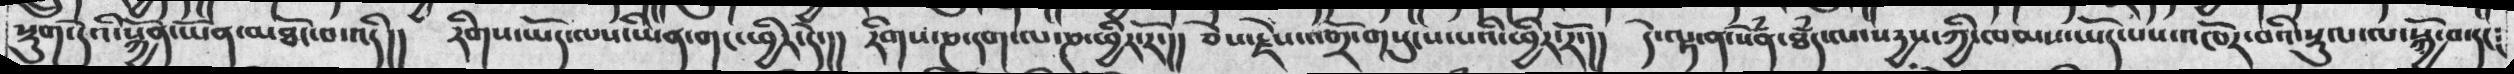སྡུག་དེའི་སྐྱོན་ཡོན་མཐོང་བ་འདི།།  རིགས་ཡོད་པས་ཡིན་གང་ཕྱིར་དེ་།།  རིགས་ཎ་དག་ལ་ཎ་ཕྱིར་རོ་།།  ཅེས་རྗེས་འགྲོ་གསུངས་པའི་ཕྱིར་རོ་།།  དེ་ལྟ་ན་སེཾན་ཐཾད་ལ་སདྱས་ཀྱི་ཁམས་ཡོད་པས་འཁོར་བའི་སྡུལ་ལ་སྐྱོ་བ་དང༴
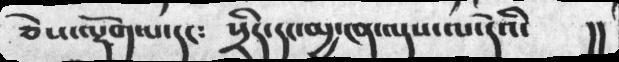ཅེས་ལྡོག་པ་དང༴ སྲིད་དང་མྱ་ངན་འདས་ལ་དེའི་ །།
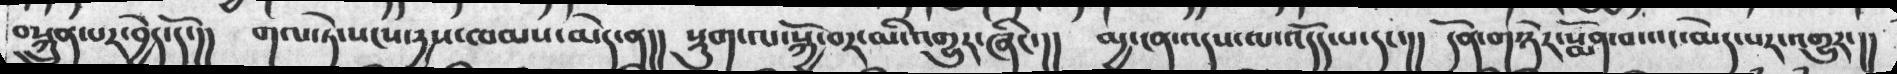བསྐྲུན་པར་བྱེད་དེ་།། གལ་ཏེ་སངས་དྱས་ཁམས་མེད་ན།། སྡུག་ལ་སྐྱོ་བར་མི་འགྱུར་ཞིང་།།  མྱ་ངན་འདས་ལ་འདོད་པ་དང་།། དོན་གཉེར་སྨོན་བ་འང་མེད་པར་འགྱུར་།།
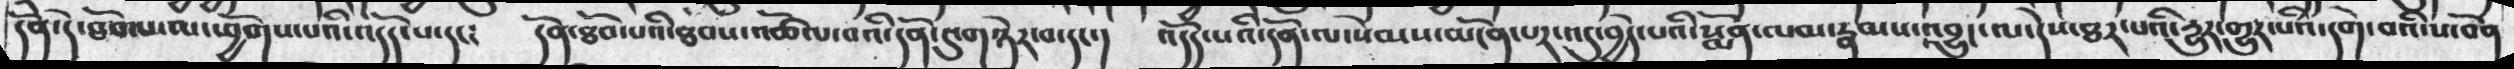དོན་དེ་ཐོབ་པ་ལ་ཕྱོགས་པའི་འདོད་པ་དང་༴ དོན་ཐོབ་པའི་ཐབས་འཚོལ་བའི་དོན་དུ་གཉེར་བ་དང་། འདོད་པའི་དོན་ལ་སེམས་མངོན་པར་འདུ་བྱེད་པའི་སྨོན་ལམ་རྣམས་འབྱུང་ལ་དེས་ཐར་པའི་རྱུར་གྱུར་པའི་དགེ་བའི་ས་བོན
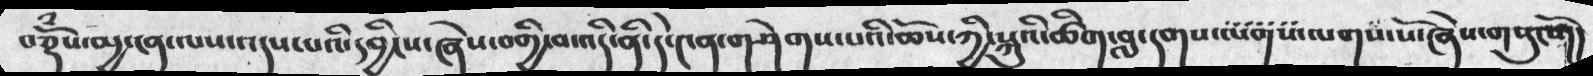བཅྡོཾས་མྱ་ངན་ལས་འདས་པའི་དབྱིངས་ཞེས་བགྱི་བ་འདི་ནི་དེ་༤ན་གཤེགས་པའི་ཆོས་ཀྱི་སྐུའི་ཚིག་བླ་དགས་ལགས་ལགས་སོ་ཞེས་གསུངསོ།།
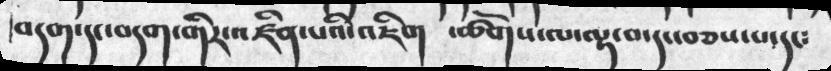བདག་དང་བདག་གིར་འཛིན་པའི་འཇིག ་ཚོགས་ལ་ལྟ་བ་དང་བཅས་པ་དང༴
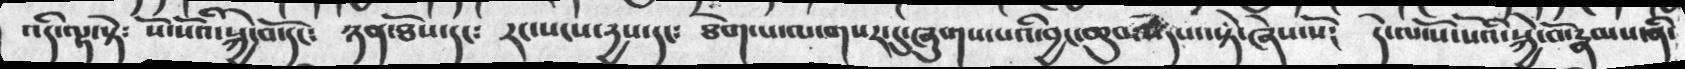འདི་ལྟ་སྟེ༴ སོ་སོའི་སྐྱེ་བོ་དང༴ ཉན་ཐོས་དང༴ རང་སངས་རྱས་དང༴ ཐེག་པ་ལ་གསར་དུ་ཞུགས་པའི་བྱང་ཆུབ་དེས་སྟེ་ཞེས་སོ༴ དེ་ལ་སོ་སོའི་སྐྱེ་བོ་རྣམས་ནི་
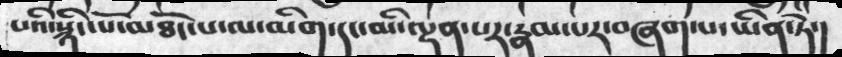པའི་སྙིང་པོ་མཐོང་པ་ལ་མིག་དང་མི་ལྡན་པར་རྣམ་པར་བཞག་པ་ཡིན་ཏེ་།
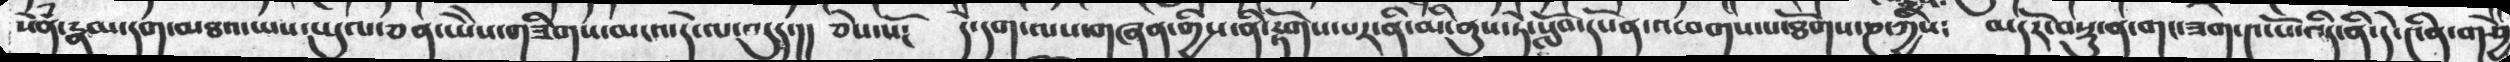སེཾན་རྣམ་དག་མཐའ་ཡས་ཡུལ་ཅན་ཡཻས་གཟིགས་མངའ་དེ་ལ་འདུད་།། ཅེས་སོ༴ དེ་དག་ལས་གཞན་གྱིས་ནི་རྟོགས་པར་ནི་མི་ནུས་ཏེ་སློབ་དཔོན་འཕགས་པ་ཐོགས་ཎ་ཀྱིས༴ མདོར་བསྡུ་ན་གང་ཟག་༤་པོ་འདི་ནི་དེ་༤ནི་གཤྱེ
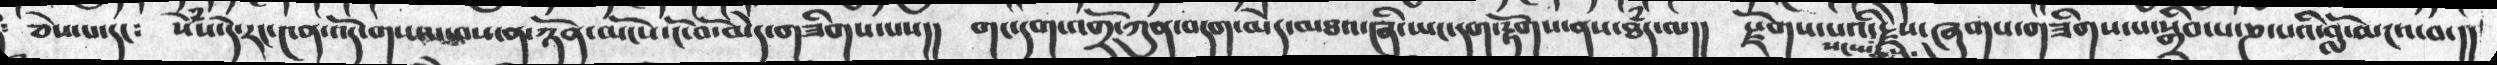ཅེས་པ་དང༴  སེཾས་དེ་རང་༤ན་འདོ་གསལ་བས་ན་ཉོན་མོངས་ངོ་བོ་མེད་གཟིགས་པས།།  གང་དག་འགྲོ་ཀུན་བདག་མེད་མཐའ་ཞི་ཡང་དག་རྟོགས་ནས་ཐཾད་ལ།།  རྫོགས་པའི་སངས་རྒྱས་རྗེས་ཞུགས་གཟིགས་པ་སྒྲིབ་པ་ཎ་པའི་བློ་མངའ་བ་།།
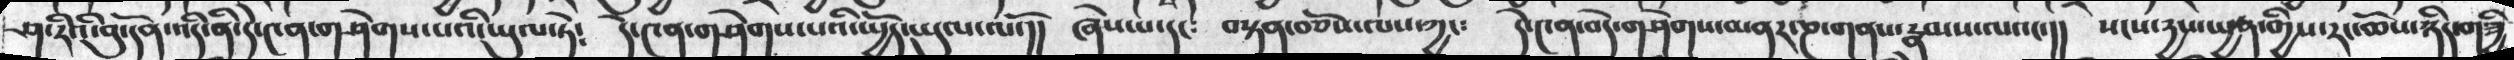ཤ་རིའི་བུ་དོན་འདི་ནི་དེ་༤ན་གཤེགས་པའི་ཡུལ་ཏེ༴ དེ་༤ན་གཤེགས་པའི་སྤྱོད་ཡུལ་ལོ་།། ཞེས་པ་དང༴ བསྟན་བཅོས་ལས་ཀྱང༴ དེ་༤ན་བདེ་གཤེགས་མནར་ཎ་གནས་རྣམས་ལའང་།། སངས་རྱས་སྤྱན་གྱིས་རང་ཆོས་ཉིད་གཟྱི
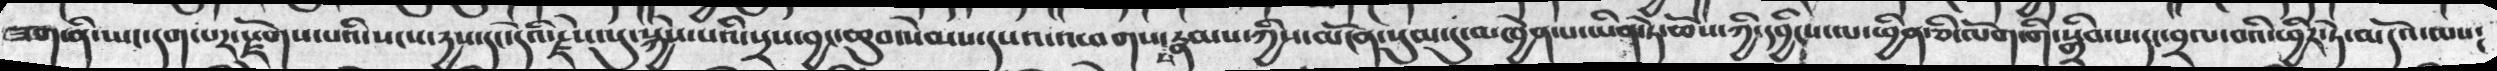ཟག་ནི་ཡང་དག་པར་རྫོགས་པའི་སངས་རྒྱས་དང་དེའི་རྗེས་སུ་སྐྱེས་པའི་སྲས་བྱང་ཆུབ་སེམས་དཔའ་འཕགས་པ་རྣམས་ཀྱིས་མངོན་སུམ་དུ་མཁྱེན་པ་ཡིན་ཏེ་ཆོས་ཀྱི་དབྱིངས་ལ་ཕྱིན་ཅི་ལོག་གི་སྒྲིབ་པ་དང་བྲལ་བའི་ཕྱིར་ཏེ་མདའོ་ལས༴
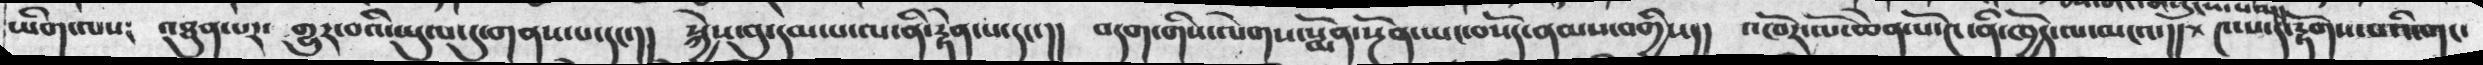ཡིག་ལས༴  འཐུན་པར་  གྱུར་བའི་ཡུལ་དུ་གནས་པ་དང་།  སྐྱེས་བུ་དམ་པ་ལ་ནི་རྟེན་པ་དང་།  བདག་གིས་ལེགས་སྨོན་སྔོན་ཡང་བསོད་ནམས་བགྱིས།།  འཁོར་ལོ་ཆེན་པོ་༤་ནི་ཁྱོད་ལ་མངའ།།  ༩་པ་དེ་རྟོགས་པའི་གང་
